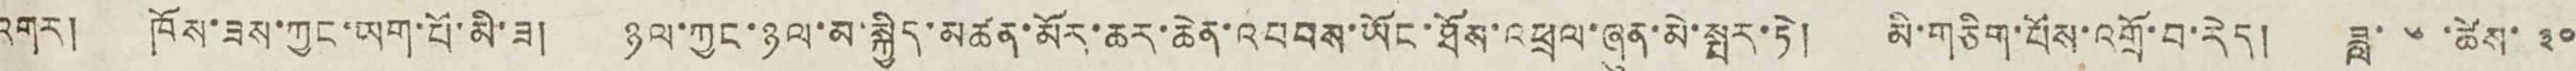འགར། ཁོས་ཟས་ཀྱང་ཡག་པོ་མི་ཟ། ཉལ་ཀྱང་ཉལ་མ་སྐྱིད་མཚན་མོར་ཆར་ཆེན་འབབས་ཡོང་ཐོས་འཕྲལ་ཞུན་མེ་སྤར་ཏེ། མི་གཅིག་པོས་འགྲོ་བ་རེད། ཟླ་ ༦ ་ཚེས་ ༣༠
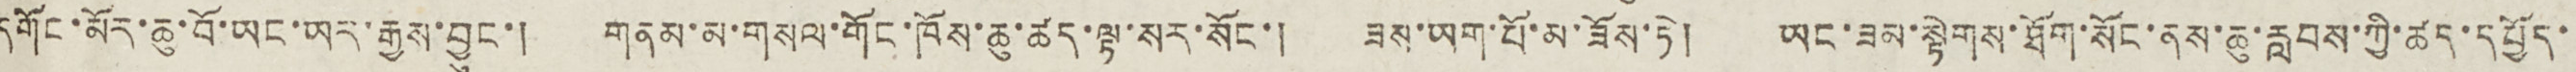དགོང་མོར་ཆུ་བོ་ཡང་ཡར་རྒྱས་བྱུང་། གནམ་མ་གསལ་གོང་ཁོས་ཆུ་ཚད་ལྟ་སར་སོང་། ཟས་ཡག་པོ་མ་ཟོས་ཏེ། ཡང་ཟམ་སྟེགས་ཐོག་སོང་ནས་ཆུ་རླབས་ཀྱི་ཚད་དཔྱོད་
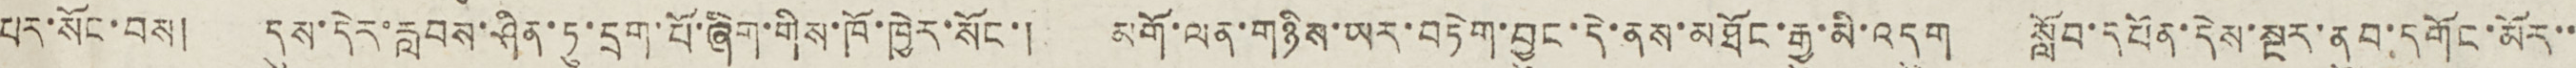པར་སོང་བས། དུས་དེར་རླབས་ཤིན་ཏུ་དྲག་པོ་ཞིག་གིས་ཁོ་ཁྱེར་སོང་། མགོ་ལན་གཉིས་ཡར་བཏེག་བྱུང་དེ་ནས་མཐོང་རྒྱུ་མི་འདུག སློབ་དཔོན་དེས་སྔར་ནུབ་དགོང་མོར་་
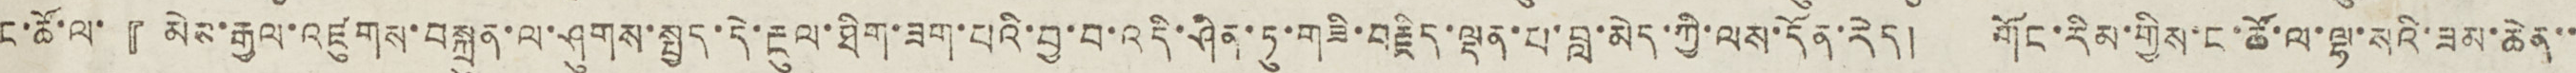ང་ཚོ་ལ་『 མེས་རྒྱལ་འཛུགས་བསྐྲུན་ལ་ཤུགས་སྤྱད་དེ་རྔུལ་ཐིག་ཟག་པའི་བྱ་བ་འདི་ཤིན་ཏུ་གཟི་བརྗིད་ལྡན་པ་བླ་མེད་ཀྱི་ལས་དོན་རེད། གོང་རིམ་གྱིས་ང་ཚོ་ལ་ལྷ་སའི་ཟམ་ཆེན་་
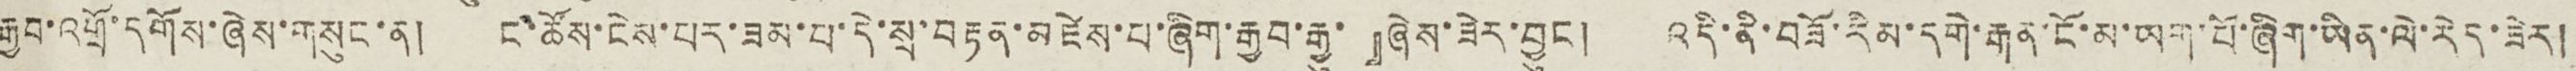རྒྱབ་འགྲོ་དགོས་ཞེས་གསུང་ན། ང་ཚོས་ངེས་པར་ཟམ་པ་དེ་སྲ་བརྟན་མཛེས་པ་ཞིག་རྒྱབ་རྒྱུ་』ཞེས་ཟེར་བྱུང ། འདི་ནི་བཟོ་རིམ་དགེ་རྒན་ངོ་མ་ཡག་པོ་ཞིག་ཡིན་ལེ་རེད་ཟེར།
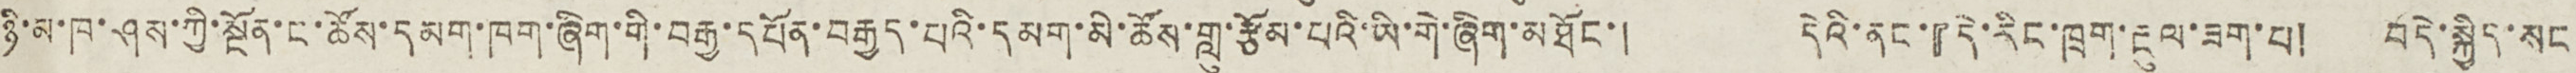ཉི་མ་ཁ་ཤས་ཀྱི་སྔོན་ང་ཚོས་དམག་ཁག་ཞིག་གི་བརྒྱ་དཔོན་བརྒྱད་པའི་དམག་མི་ཚོས་གླུ་རྩོམ་པའི་ཡི་གེ་ཞིག་མཐོང་། དེའི་ནང་『དེ་རིང་ཁྲག་རྔུལ་ཟག་པ། བདེ་སྐྱིད་སང
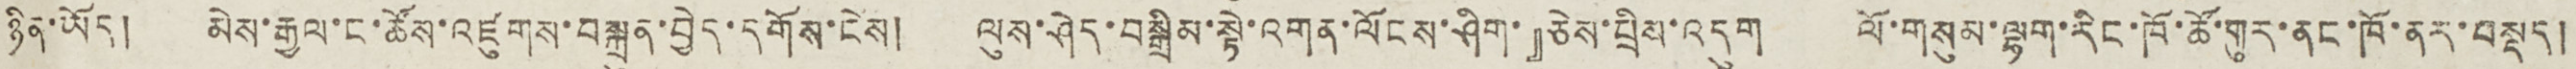ཉིན་ཡོད། མེས་རྒྱལ་ང་ཚོས་འཛུགས་བསྐྲུན་བྱེད་དགོས་ངེས། ལུས་ཤེད་བསྒྲིམ་སྟེ་འགན་ལོངས་ཤིག་』ཅེས་བྲིས་འདུག ལོ་གསུམ་ལྷག་རིང་ཁོ་ཚོ་གུར་ནང་ཁོ་ནར་བསྡད།
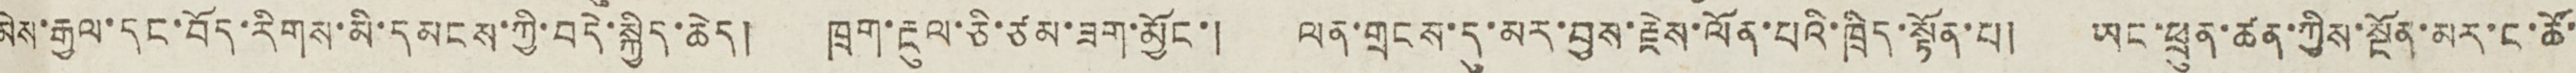མེས་རྒྱལ་དང་བོད་རིགས་མི་དམངས་ཀྱི་བདེ་སྐྱིད་ཆེད། ཁྲག་རྔུལ་ཅི་ཙམ་ཟག་མྱོང་། ལན་གྲངས་དུ་མར་བྱས་རྗེས་ལོན་པའི་ཁྲིད་སྟོན་པ། ཡང་ཕྲུན་ཚན་ཀྱིས་སྔོན་མར་ང་ཚོ་
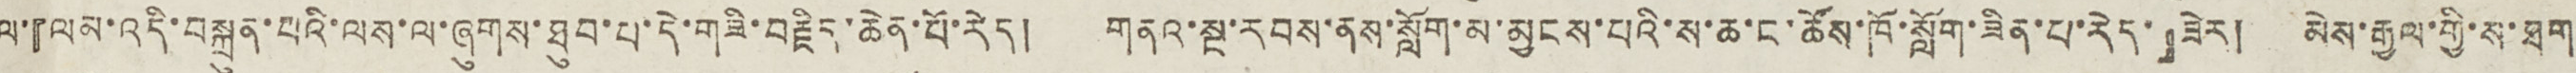ལ་『ལམ་འདི་བསྐྲུན་པའི་ལས་ལ་ཞུགས་ཐུབ་པ་དེ་གཟི་བརྗིད་ཆེན་པོ་རེད། གནའ་སྔ་རབས་ནས་སློག་མ་མྱངས་པའི་ས་ཆ་ང་ཚོས་ཁོ་སློག་ཟིན་པ་རེད་』ཟེར། མེས་རྒྱལ་གྱི་ས་ཐག
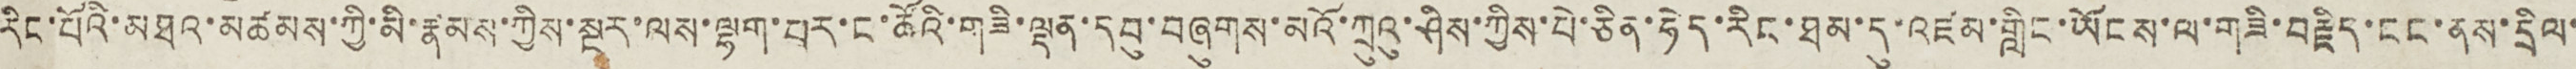རིང་པོའི་མཐའ་མཚམས་ཀྱི་མི་རྣམས་ཀྱིས་སྔར་ལས་ལྷག་པར་ང་ཚོའི་གཟི་ལྡན་དབུ་བཞུགས་མའོ་ཀྲུའུ་ཤིས་ཀྱིས་པེ་ཅིན་ཧེད་རིང་ཐམ་དུ་འཛམ་གླིང་ཡོངས་ལ་གཟི་བརྗིད་ངང་ནས་དྲིལ་
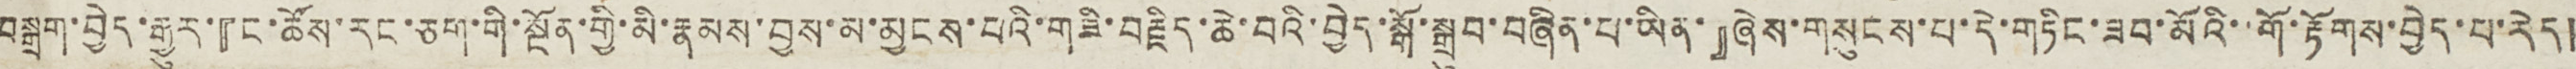བསྒྲག་བྱེད་རྒྱུར་『ང་ཚོས་རང་ཅག་གི་སྔོན་གྱི་མི་རྣམས་བྱས་མ་མྱངས་པའི་གཟི་བརྗིད་ཆེ་བའི་བྱེད་སྒོ་སྒྲུབ་བཞིན་པ་ཡིན་』ཞེས་གསུངས་པ་དེ་གཏིང་ཟབ་མོའི་་གོ་རྟོགས་བྱེད་པ་རེད།
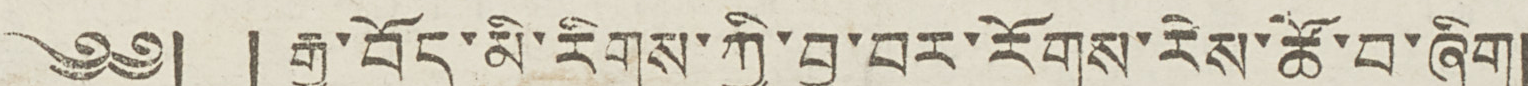༄༅། ། རྒྱ་བོད་མི་རིགས་ཀྱི་བྱ་བར་རོགས་རེས་ཚོ་བ་ཞིག།།
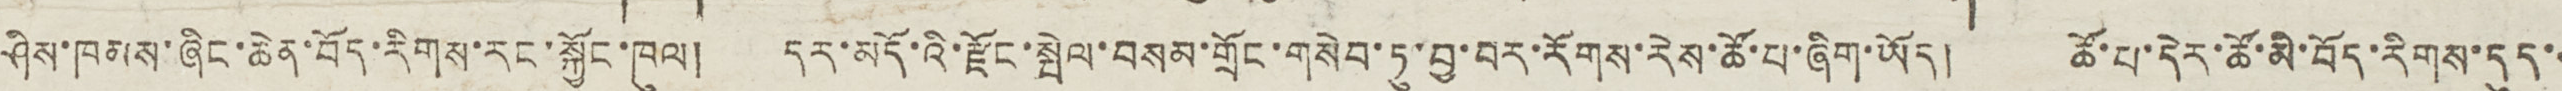ཤིས་ཁམས་ཞིང་ཆེན་བོད་རིགས་རང་སྐྱོང་ཁུལ། དར་མདོ་འི་རྫོང་སྤེལ་བསམ་གྲོང་གསེབ་ཏུ་བྱ་བར་རོགས་རེས་ཚོ་པ་ཞིག་ཡོད། ཚོ་པ་དེར་ཚོ་མི་བོད་རིགས་དུད་་
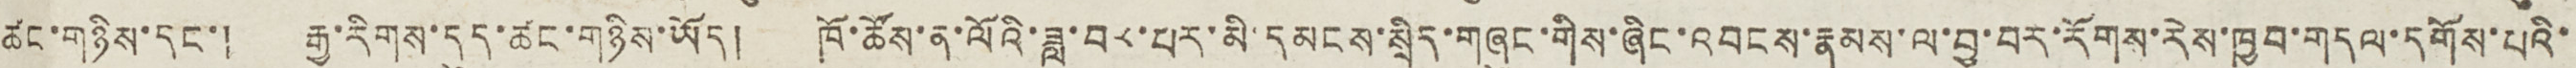ཚང་གཉིས་དང་། རྒྱ་རིགས་དུད་ཚང་གཉིས་ཡོད། ཁོ་ཚོས་ན་ལོའི་ཟླ་བ ༨་པར་མི་དམངས་སྲིད་གཞུང་གིས་ཞིང་འབངས་རྣམས་ལ་བྱ་བར་རོགས་རེས་ཁྱབ་གདལ་དགོས་པའི་
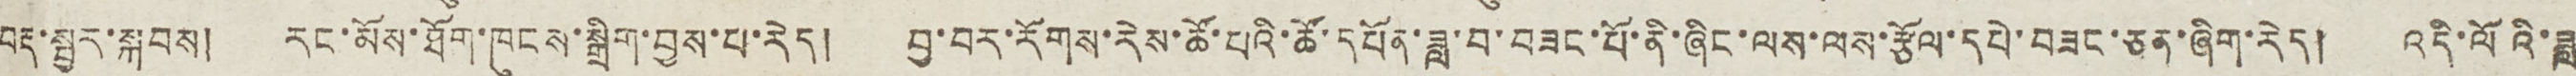བརྡ་སྦྱར་སྐབས། རང་མོས་ཐོག་ཁུངས་སྒྲིག་བྱས་པ་རེད། བྱ་བར་རོགས་རེས་ཚོ་པའི་ཚོ་དཔོན་ཟླ་བ་བཟང་པོ་ནི་ཞིང་ལས་ལས་རྩོལ་དཔེ་བཟང་ཅན་ཞིག་རེད། འདི་ལོའི་ཟླ
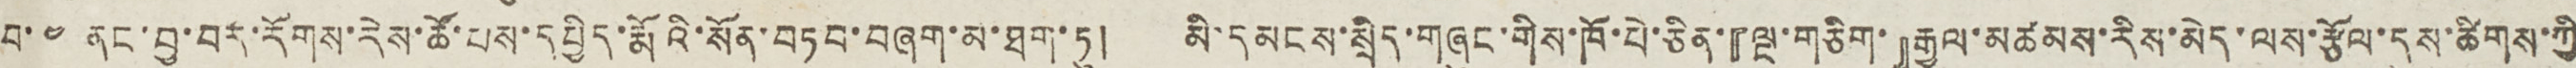བ་ ༤ ནང་བྱ་བར་རོགས་རེས་ཚོ་པས་དཔྱིད་རྨོའི་སོན་བཏབ་བཞག་མ་ཐག་ཏུ། མི་དམངས་སྲིད་གཞུང་གིས་ཁོ་པེ་ཅིན་『ལྔ་གཅིག་』རྒྱལ་མཚམས་རིས་མེད་ལས་རྩོལ་དུས་ཚིགས་ཀྱི
